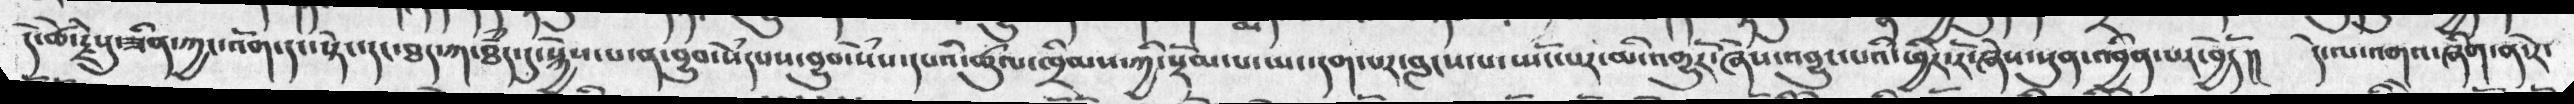དེ་ཚེ་རྗེསུ་ཟིན་ཀྱང་འོག་དང་སྟེང་དང་ཐད་ཀ་ཐཾད་དུ་སྐྱེས་པ་ན་བྱུབ་སེཾདཔས་བྱུབ་སེཾས་དཔའི་ཚུལ་ཁྲིམས་ཀྱི་སྡོམ་པ་ཡང་དག་པར་བླངས་པ་སྤོང་པར་མི་འགྱུརོ་ཞེས་འབྱུང་པའི་ཕྱིར་རོ་ཞེས་སུན་འབྱིན་པར་བྱེདོ།།   དེ་ལ་འགའ་ཞིག་ན་རེ་
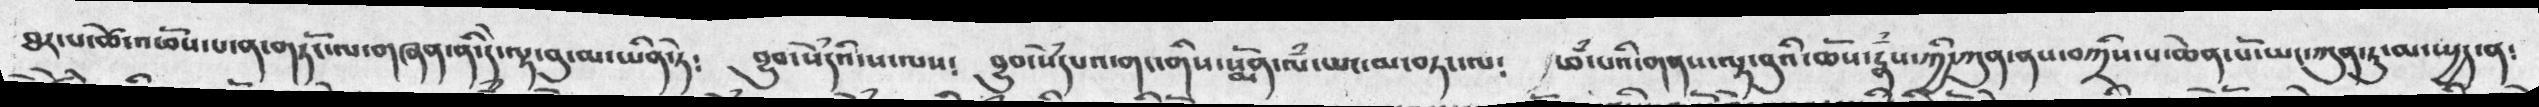ཐར་པ་ཚེ་འཕོས་པ་ན་གཏོང་ལ་གཞན་ནི་དེ་ལྟ་བུ་མ་ཡིན་ཏེ༴  བྱུབ་སེཾདའི་ས་ལས༴  བྱུབ་སེཾདཔའ་གང་གིས་སྨོན་ལཾ་ཡང་མ་བཏང་ལ༴  ཕཾ་པའི་གནས་ལྟ་བུའི་ཆོས་རྣཾས་ཀྱི་ཀུན་ནས་བཀྲིས་པ་ཆེན་པོ་ཡང་ཀུན་ཏུ་མ་སྤྱད་ན༴
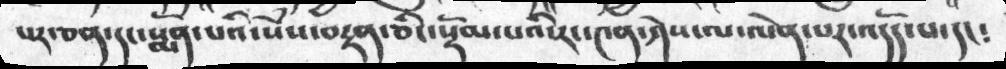པར་ཅན་དང་སྨོན་པའི་སེཾས་བརྟན་ཅིང་སྡོམ་པའི་རང་༤ན་ཤེས་ལ་ལེན་པར་འདོད་པ་དང༴
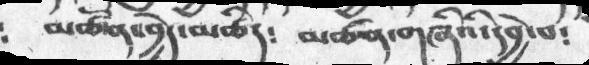མཚོན་བྱེད་མཚིད༴ མཚན་གཞིའི་དབྱེ་བ༴
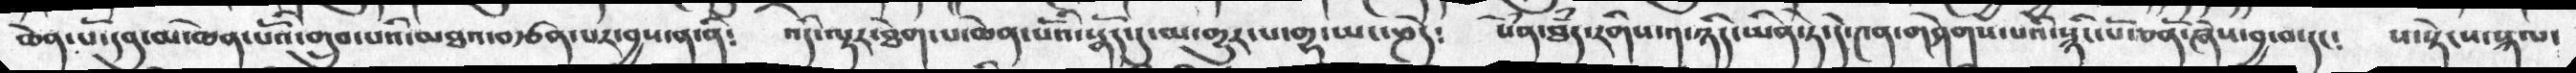ཆེན་པོ་དབུ་མ་ཆེན་པོའི་གྲུབ་པའི་མཐའ་བརྩན་པར་བྱས་ན་ནི༴  འདི་ལྟར་ཐེག་པ་ཆེན་པོའི་སྣོད་དུ་མ་གྱུར་པ་གྷ་ཡང་ཎདེ༴  སེཾན་ཐཾད་རིགས་༡་ཉིད་ཡིན་ཏེ་དེ་༤ན་གཤེགས་པའི་སྙིང་པོ་ཅནོ་ཞེས་བྱ་བ་དང༴  ས་སྟེངས་སྐལ་
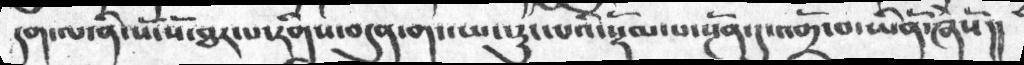དག་ལ་ནི་སོ་སོ་ཐར་པ་རིགས་བདུན་གང་ཡང་རུང་པའི་སྡོམ་པ་སྔོན་དུ་འགྲོ་བ་ཡིནོ་ཞེསོ།།
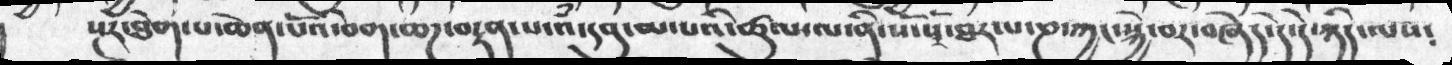སྔར་ཐེག་པ་ཆེན་པོའི་བག་ཆགས་བརྟན་པ་འཾ་དབུ་མ་པའི་ཚུལ་ལ་ནི་སོ་སོ་ཐར་པ་ཎ་ཀྱང་སྐྱེ་བར་བཞེད་དེ་དེ་ཉིད་ལས༴
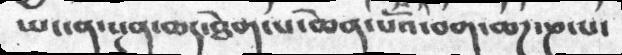ཡང་ན་སྔན་ཆད་ཐེག་པ་ཆེན་པོའི་བག་ཆཌ་ཎ་པ་
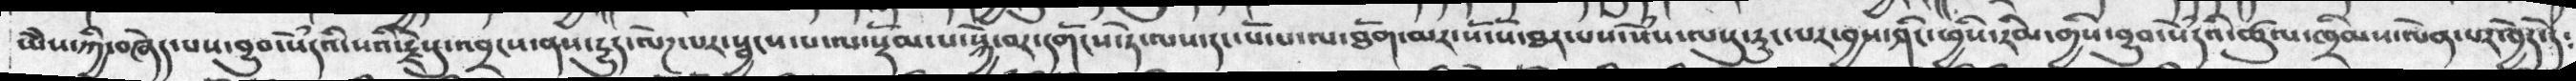ཡཻས་ཀྱི་བཞེད་པས་བྱུབ་སེཾདའི་སའི་རྗེསུ་འབྲངས་ནས་རྱུད་ལེཌ་པར་སྦྱངས་པ་ལ་སྡོམ་པ་སྐྱེ་བར་དགོངས་ཏེ་ལས་དང་པོ་པ་ལ་ཐོག་མར་སོ་སོ་ཐར་པས་སེཾས་ལསུ་རུང་པར་བྱས་ཤིང་ཕྱིས་རིམ་གྱིས་བྱུབ་སེཾདའི་ཚུལ་ཁྲིམས་ལེན་པར་བྱེད་དེ༴
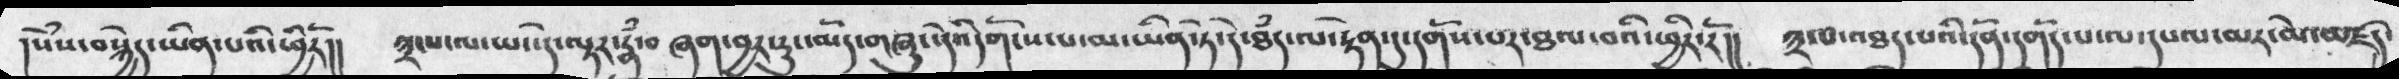།སེཾས་བསྐྱེད་ཡིན་པའི་ཕྱིརོ།། ༣་པ་ལ་ཡང་དེ་ལྟར་རྣཾ་བཞག་བྱར་རུང་མོད་གཞུང་དེའི་དགོངས་པ་མ་ཡིན་ཏེ་དེ་ཐཾད་ལ་རྟེན་དུ་དགོས་པར་ཐལ་བའི་ཕྱིར་རོ།། ༣་པ་འཐད་པའི་དོན་དགོད་པ་ལ་དཔལ་མར་མེ་མཛད་
